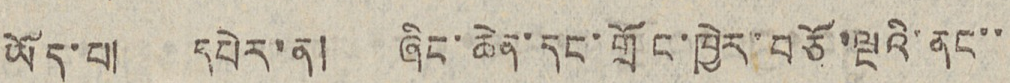ཡོད་པ། དཔེར་ན། ཞིང་ཆེན་དང་གྲོང་ཁྱེར་བཅོ་ལྔའི་ནང་་
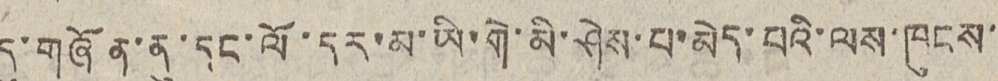དུ་གཞོན་ནུ་དང་ལོ་དར་མ་ཡི་གེ་མི་ཤེས་པ་མེད་པའི་ལས་ཁུངས་
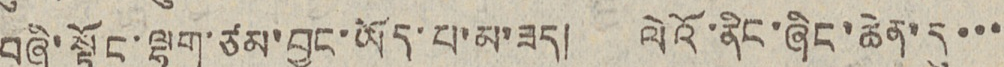བཞི་སྟོང་ལྷག་ཙམ་བྱུང་ཡོད་པ་མ་ཟད། ལེའོ་ནིང་ཞིང་ཆེན་དུ་་་
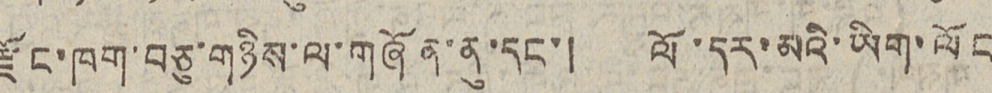རྫོང་ཁག་བཅུ་གཉིས་ལ་གཞོན་ནུ་དང་། ལོ་དར་མའི་ཡིག་ལོང
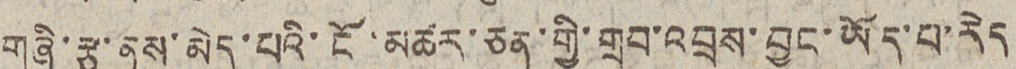གཞི་རྩ་ནས་མེད་པའི་ངོ་མཚར་ཅན་གྱི་གྲུབ་འབྲས་བྱུང་ཡོད་པ་རེད
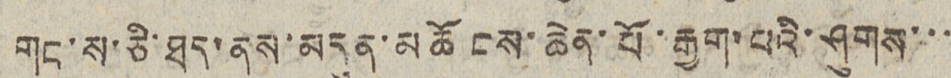གང་ས་ཅི་ཐད་ནས་མདུན་མཆོངས་ཆེན་པོ་རྒྱག་པའི་ཤུགས་་་
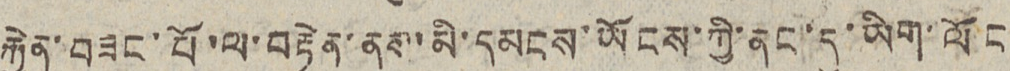རྐྱེན་བཟང་པོ་ལ་བརྟེན་ནས་མི་དམངས་ཡོངས་ཀྱི་ནང་དུ་ཡིག་ལོང
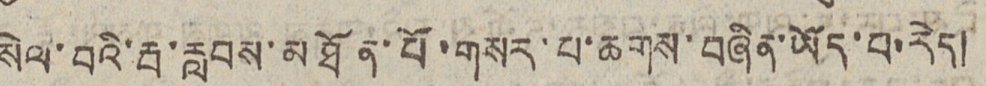སེལ་བའི་རྦ་རླབས་མཐོན་པོ་གསར་པ་ཆགས་བཞིན་ཡོད་པ་རེད།
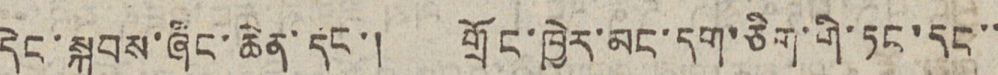དེང་སྐབས་ཞིང་ཆེན་དང་། གྲོང་ཁྱེར་མང་དག་ཅིག་གི་ཏང་དང་་
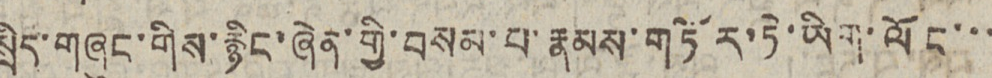སྲིད་གཞུང་གིས་རྙིང་ཞེན་གྱི་བསམ་པ་རྣམས་གཏོར་ཏེ་ཡིག་ལོང་་་
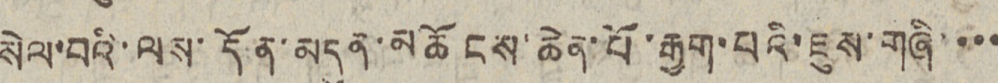སེལ་བའི་ལས་དོན་མདུན་མཆོངས་ཆེན་པོ་རྒྱག་པའི་ཇུས་གཞི་་་་
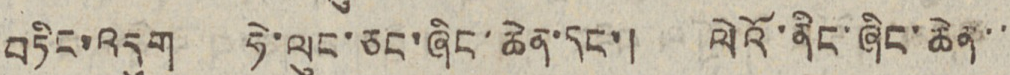བཏིང་འདུག ཧེ་ལུང་ཅང་ཞིང་ཆེན་དང་། ལེའོ་ནིང་ཞིང་ཆེན་་
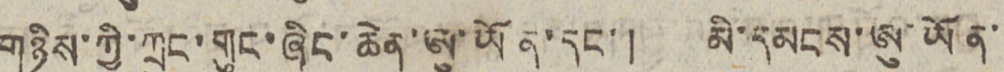གཉིས་ཀྱི་ཀྲུང་གུང་ཞིང་ཆེན་ཨུ་ཡོན་དང་། མི་དམངས་ཨུ་ཡོན་
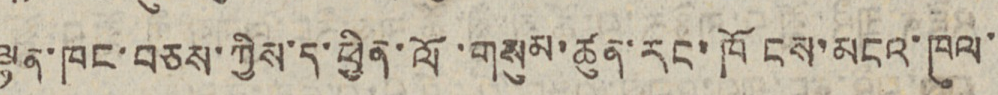ལྷན་ཁང་བཅས་ཀྱིས་ད་ཕྱིན་ལོ་གསུམ་ཚུན་རང་ཁོངས་མངའ་ཁུལ་
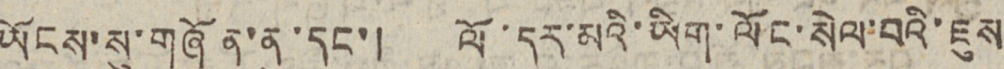ཡོངས་སུ་གཞོན་ནུ་དང་། ལོ་དར་མའི་ཡིག་ལོང་སེལ་བའི་ཇུས
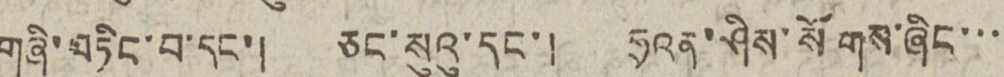གཞི་བཏིང་བ་དང་། ཅང་སུའུ་དང་། ཧྲའན་ཤིས་སོགས་ཞིང་་་
